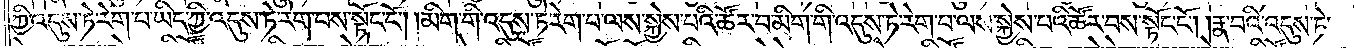ཀྱི་འདུས་ཏེ་རེག་པ་ཡིད་ཀྱི་འདུས་ཏེ་རེག་པས་སྟོང་ངོ༌། །མིག་གི་འདུས་ཏེ་རེག་པ་ལས་སྐྱེས་པའི་ཚོར་བ་མིག་གི་འདུས་ཏེ་རེག་པ་ལས་སྐྱེས་པའི་ཚོར་བས་སྟོང་ངོ༌། །རྣ་བའི་འདུས་ཏེ་
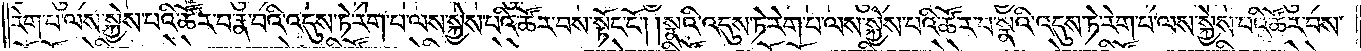རེག་པ་ལས་སྐྱེས་པའི་ཚོར་བ་རྣ་བའི་འདུས་ཏེ་རེག་པ་ལས་སྐྱེས་པའི་ཚོར་བས་སྟོང་ངོ༌། །སྣའི་འདུས་ཏེ་རེག་པ་ལས་སྐྱེས་པའི་ཚོར་བ་སྣའི་འདུས་ཏེ་རེག་པ་ལས་སྐྱེས་པའི་ཚོར་བས་
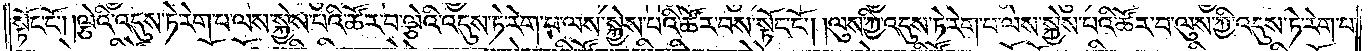སྟོང་ངོ༌། །ལྕེའི་འདུས་ཏེ་རེག་པ་ལས་སྐྱེས་པའི་ཚོར་བ་ལྕེའི་འདུས་ཏེ་རེག་པ་ལས་སྐྱེས་པའི་ཚོར་བས་སྟོང་ངོ༌། །ལུས་ཀྱི་འདུས་ཏེ་རེག་པ་ལས་སྐྱེས་པའི་ཚོར་བ་ལུས་ཀྱི་འདུས་ཏེ་རེག་པ་
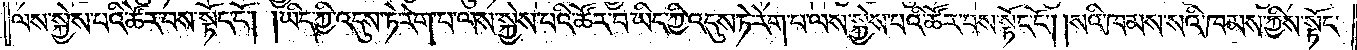ལས་སྐྱེས་པའི་ཚོར་བས་སྟོང་ངོ༌། །ཡིད་ཀྱི་འདུས་ཏེ་རེག་པ་ལས་སྐྱེས་པའི་ཚོར་བ་ཡིད་ཀྱི་འདུས་ཏེ་རེག་པ་ལས་སྐྱེས་པའི་ཚོར་བས་སྟོང་ངོ༌། །སའི་ཁམས་སའི་ཁམས་ཀྱིས་སྟོང་
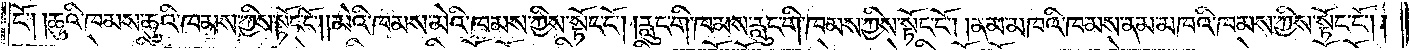ངོ༌། །ཆུའི་ཁམས་ཆུའི་ཁམས་ཀྱིས་སྟོང་ངོ༌། །མེའི་ཁམས་མེའི་ཁམས་ཀྱིས་སྟོང་ངོ༌། །རླུང་གི་ཁམས་རླུང་གི་ཁམས་ཀྱིས་སྟོང་ངོ༌། །ནམ་མཁའི་ཁམས་ནམ་མཁའི་ཁམས་ཀྱིས་སྟོང་ངོ༌། །
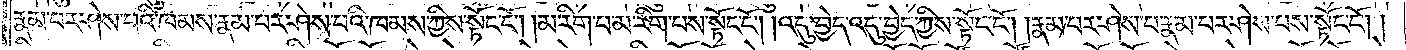རྣམ་པར་ཤེས་པའི་ཁམས་རྣམ་པར་ཤེས་པའི་ཁམས་ཀྱིས་སྟོང་ངོ༌། །མ་རིག་པ་མ་རིག་པས་སྟོང་ངོ༌། །འདུ་བྱེད་འདུ་བྱེད་ཀྱིས་སྟོང་ངོ༌། །རྣམ་པར་ཤེས་པ་རྣམ་པར་ཤེས་པས་སྟོང་ངོ༌། །
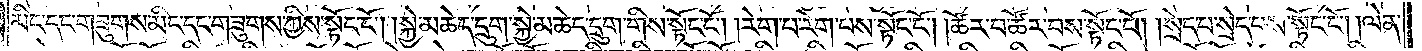མིང་དང་གཟུགས་མིང་དང་གཟུགས་ཀྱིས་སྟོང་ངོ༌། །སྐྱེ་མཆེད་དྲུག་སྐྱེ་མཆེད་དྲུག་གིས་སྟོང་ངོ༌། །རེག་པ་རེག་པས་སྟོང་ངོ༌། །ཚོར་བ་ཚོར་བས་སྟོང་ངོ༌། །སྲེད་པ་སྲེད་པས་སྟོང་ངོ༌། །ལེན་
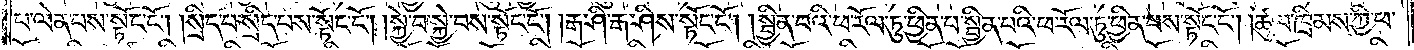པ་ལེན་པས་སྟོང་ངོ༌། །སྲིད་པ་སྲིད་པས་སྟོང་ངོ༌། །སྐྱེ་བ་སྐྱེ་བས་སྟོང་ངོ༌། །རྒ་ཤི་རྒ་ཤིས་སྟོང་ངོ༌། །སྦྱིན་པའི་ཕ་རོལ་ཏུ་ཕྱིན་པ་སྦྱིན་པའི་ཕ་རོལ་ཏུ་ཕྱིན་པས་སྟོང་ངོ༌། །ཚུལ་ཁྲིམས་ཀྱི་ཕ་
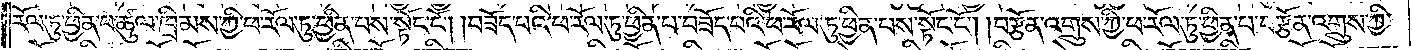རོལ་ཏུ་ཕྱིན་པ་ཚུལ་ཁྲིམས་ཀྱི་ཕ་རོལ་ཏུ་ཕྱིན་པས་སྟོང་ངོ༌། །བཟོད་པའི་ཕ་རོལ་ཏུ་ཕྱིན་པ་བཟོད་པའི་ཕ་རོལ་ཏུ་ཕྱིན་པས་སྟོང་ངོ༌། །བརྩོན་འགྲུས་ཀྱི་ཕ་རོལ་ཏུ་ཕྱིན་པ་བརྩོན་འགྲུས་ཀྱི་
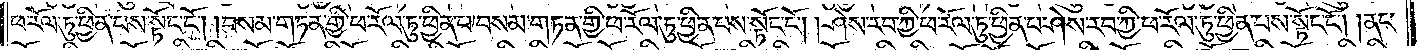ཕ་རོལ་ཏུ་ཕྱིན་པས་སྟོང་ངོ༌། །བསམ་གཏན་གྱི་ཕ་རོལ་ཏུ་ཕྱིན་པ་བསམ་གཏན་གྱི་ཕ་རོལ་ཏུ་ཕྱིན་པས་སྟོང་ངོ༌། །ཤེས་རབ་ཀྱི་ཕ་རོལ་ཏུ་ཕྱིན་པ་ཤེས་རབ་ཀྱི་ཕ་རོལ་ཏུ་ཕྱིན་པས་སྟོང་ངོ༌། །ནང་
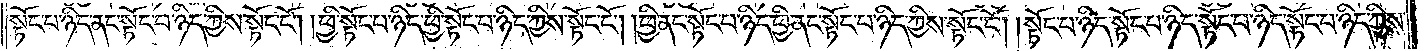སྟོང་པ་ཉིད་ནང་སྟོང་པ་ཉིད་ཀྱིས་སྟོང་ངོ༌། །ཕྱི་སྟོང་པ་ཉིད་ཕྱི་སྟོང་པ་ཉིད་ཀྱིས་སྟོང་ངོ༌། །ཕྱི་ནང་སྟོང་པ་ཉིད་ཕྱི་ནང་སྟོང་པ་ཉིད་ཀྱིས་སྟོང་ངོ༌། །སྟོང་པ་ཉིད་སྟོང་པ་ཉིད་སྟོང་པ་ཉིད་སྟོང་པ་ཉིད་ཀྱིས་
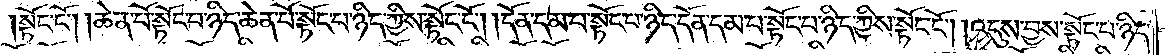སྟོང་ངོ༌། །ཆེན་པོ་སྟོང་པ་ཉིད་ཆེན་པོ་སྟོང་པ་ཉིད་ཀྱིས་སྟོང་ངོ༌། །དོན་དམ་པ་སྟོང་པ་ཉིད་དོན་དམ་པ་སྟོང་པ་ཉིད་ཀྱིས་སྟོང་ངོ༌། །འདུས་བྱས་སྟོང་པ་ཉིད་
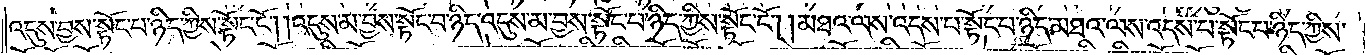འདུས་བྱས་སྟོང་པ་ཉིད་ཀྱིས་སྟོང་ངོ༌། །འདུས་མ་བྱས་སྟོང་པ་ཉིད་འདུས་མ་བྱས་སྟོང་པ་ཉིད་ཀྱིས་སྟོང་ངོ༌། །མཐའ་ལས་འདས་པ་སྟོང་པ་ཉིད་མཐའ་ལས་འདས་པ་སྟོང་པ་ཉིད་ཀྱིས་
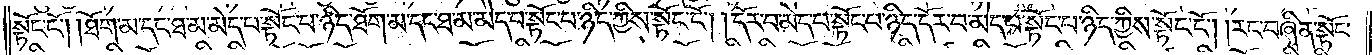སྟོང་ངོ༌། །ཐོག་མ་དང་ཐ་མ་མེད་པ་སྟོང་པ་ཉིད་ཐོག་མ་དང་ཐ་མ་མེད་པ་སྟོང་པ་ཉིད་ཀྱིས་སྟོང་ངོ༌། །དོར་བ་མེད་པ་སྟོང་པ་ཉིད་དོར་བ་མེད་པ་སྟོང་པ་ཉིད་ཀྱིས་སྟོང་ངོ༌། །རང་བཞིན་སྟོང་
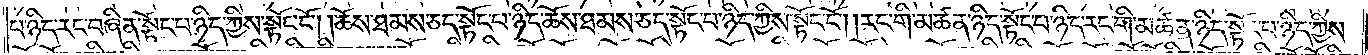པ་ཉིད་རང་བཞིན་སྟོང་པ་ཉིད་ཀྱིས་སྟོང་ངོ༌། །ཆོས་ཐམས་ཅད་སྟོང་པ་ཉིད་ཆོས་ཐམས་ཅད་སྟོང་པ་ཉིད་ཀྱིས་སྟོང་ངོ༌། །རང་གི་མཚན་ཉིད་སྟོང་པ་ཉིད་རང་གི་མཚན་ཉིད་སྟོང་པ་ཉིད་ཀྱིས་
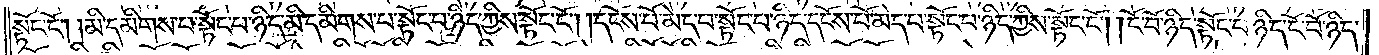སྟོང་ངོ༌། །མི་དམིགས་པ་སྟོང་པ་ཉིད་མི་དམིགས་པ་སྟོང་པ་ཉིད་ཀྱིས་སྟོང་ངོ༌། །དངོས་པོ་མེད་པ་སྟོང་པ་ཉིད་དངོས་པོ་མེད་པ་སྟོང་པ་ཉིད་ཀྱིས་སྟོང་ངོ༌། །ངོ་བོ་ཉིད་སྟོང་པ་ཉིད་ངོ་བོ་ཉིད་
